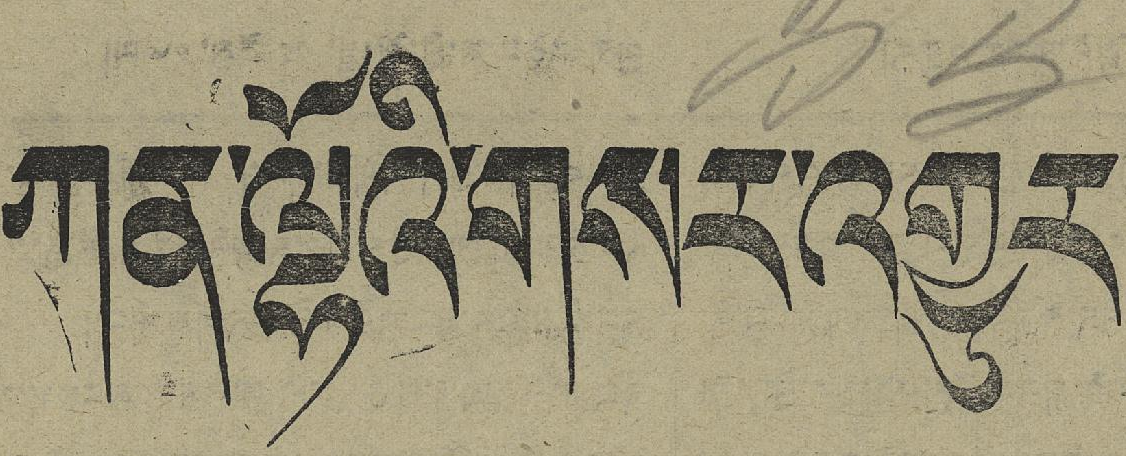ཀན་ལྷོའི་གསར་འགྱུར
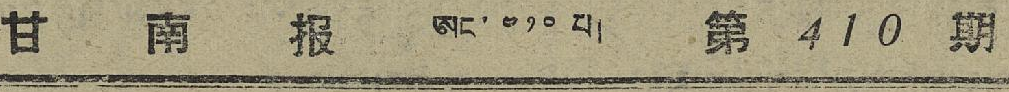甘 南 报 ཨང་ ༤༡༠ པ། 第 410 期
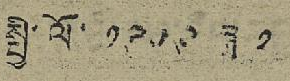སྤྱི་ལོ་ ༡༩༥༩ ཟླ་ ༢
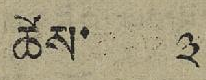ཚེས་ ༣
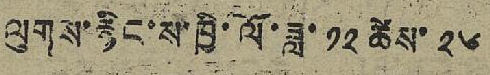ལུགས་རྙིང་ས་ཁྱི་ལོ་ཟླ་ ༡༢ ཚེས་ ༢༦
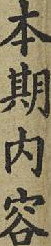本期內容
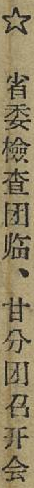☆ 省委檢查团临、甘分团召开会
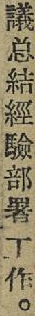議总結經驗部署工作。
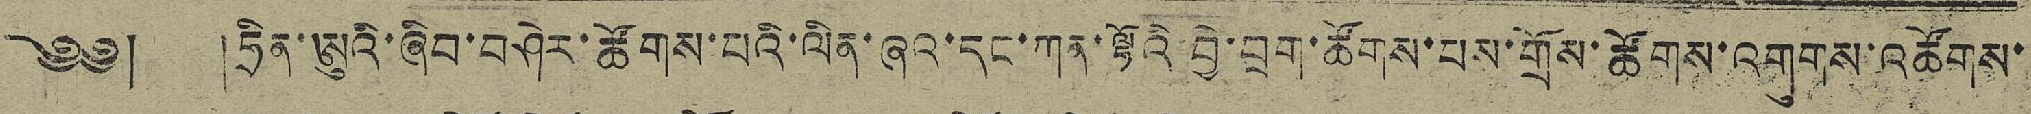༄༅། །ཧྲིན་ཨུའི་ཞིབ་བཤེར་ཚོགས་པའི་ལིན་ཞའ་དང་ཀན་ལྷོའི་བྱེ་བྲག་ཚོགས་པས་གྲོས་ཚོགས་འགུགས་འཚོགས་
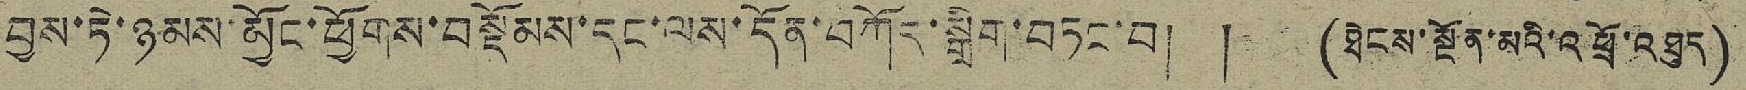བྱས་ཏེ་ཉམས་མྱོང་ཕྱོགས་བསྡོམས་དང་ལས་དོན་བཀོར་སྒྲིག་བཏང་བ། ། (ཐེངས་སྔོན་མའི་འཕྲོ་འཐུད)
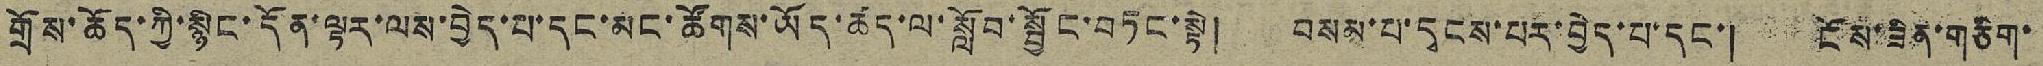གྲོས་ཆོད་ཀྱི་སྙིང་དོན་ལྟར་ལས་བྱེད་པ་དང་མང་ཚོགས་ཡོད་ཚད་ལ་སློབ་སྦྱོང་བཏང་སྟེ། བསམ་པ་དྭངས་པར་བྱེད་པ་དང་། ངོས་ཟིན་གཅིག་
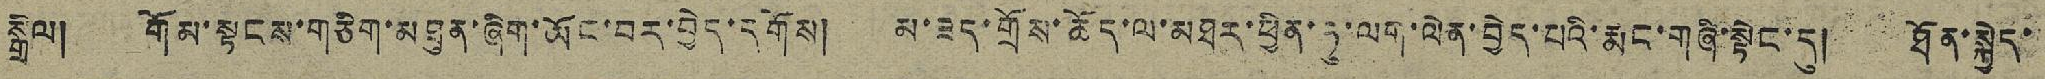སྒྲིལ། གོམ་སྟངས་གཅིག་མཐུན་ཞིག་ཡོང་བར་བྱེད་དགོས། མ་ཟད་གྲོས་ཆོད་ལ་མཐར་ཕྱིན་ཏུ་ལག་ལེན་བྱེད་པའི་རྨང་གཞི་སྟེང་དུ། ཐོན་སྐྱེད་
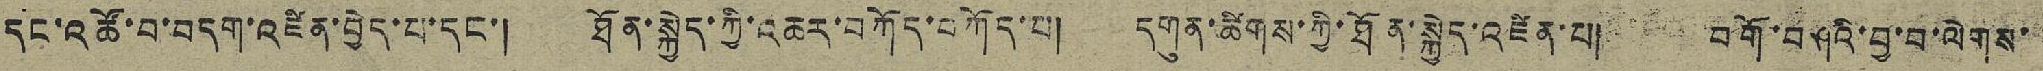དང་འཚོ་བ་བདག་འཛིན་བྱེད་པ་དང་། ཐོན་སྐྱེད་ཀྱི་འཆར་བཀོད་བཀོད་པ། དགུན་ཚིགས་ཀྱི་ཐོན་སྐྱེད་འཛིན་པ། བགོ་བཤའི་བྱ་བ་ལེགས་
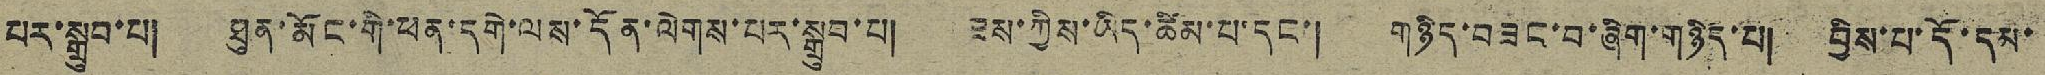པར་སྒྲུབ་པ། ཐུན་མོང་གི་ཕན་དགེ་ལས་དོན་ལེགས་པར་སྒྲུབ་པ། ཟས་ཀྱིས་ཡིད་ཚིམ་པ་དང་། གཉིད་བཟང་བ་ཞིག་གཉིད་པ། བྱིས་པ་དོ་དམ་
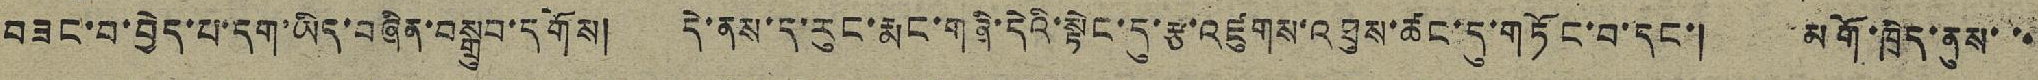བཟང་བ་བྱེད་པ་དག་ཡིད་བཞིན་བསྒྲུབ་དགོས། དེ་ནས་ད་རུང་རྨང་གཞི་དེའི་སྟེང་དུ་རྩ་འཛུགས་འཐུས་ཚང་དུ་གཏོང་བ་དང་། མགོ་ཁྲིད་ནུས་་་
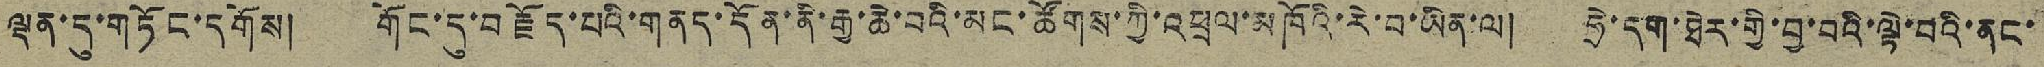ལྡན་དུ་གཏོང་དགོས། གོང་དུ་བརྗོད་པའི་གནད་དོན་ནི་རྒྱ་ཆེ་བའི་མང་ཚོགས་ཀྱི་འཕྲལ་མཁོའི་རེ་བ་ཡིན་ལ། ཧྲེ་དག་ཐེར་གྱི་བྱ་བའི་ལྟེ་བའི་ནང་
